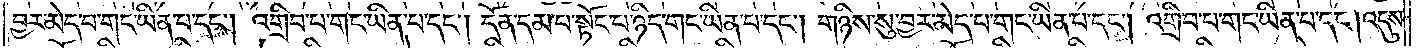བྱར་མེད་པ་གང་ཡིན་པ་དང༌། འགྲིབ་པ་གང་ཡིན་པ་དང༌། དོན་དམ་པ་སྟོང་པ་ཉིད་གང་ཡིན་པ་དང༌། གཉིས་སུ་བྱར་མེད་པ་གང་ཡིན་པ་དང༌། འགྲིབ་པ་གང་ཡིན་པ་དང༌། འདུས་
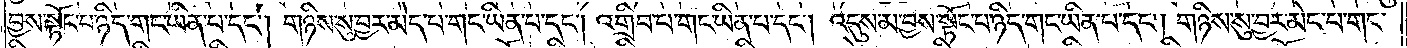བྱས་སྟོང་པ་ཉིད་གང་ཡིན་པ་དང༌། གཉིས་སུ་བྱར་མེད་པ་གང་ཡིན་པ་དང༌། འགྲིབ་པ་གང་ཡིན་པ་དང༌། འདུས་མ་བྱས་སྟོང་པ་ཉིད་གང་ཡིན་པ་དང༌། གཉིས་སུ་བྱར་མེད་པ་གང་
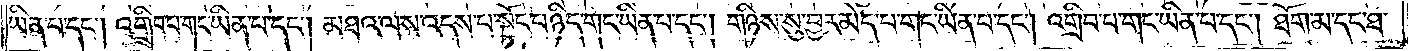ཡིན་པ་དང༌། འགྲིབ་པ་གང་ཡིན་པ་དང༌། མཐའ་ལས་འདས་པ་སྟོང་པ་ཉིད་གང་ཡིན་པ་དང༌། གཉིས་སུ་བྱར་མེད་པ་གང་ཡིན་པ་དང༌། འགྲིབ་པ་གང་ཡིན་པ་དང༌། ཐོག་མ་དང་ཐ་
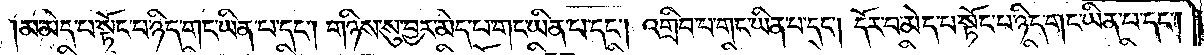མ་མེད་པ་སྟོང་པ་ཉིད་གང་ཡིན་པ་དང༌། གཉིས་སུ་བྱར་མེད་པ་གང་ཡིན་པ་དང༌། འགྲིབ་པ་གང་ཡིན་པ་དང༌། དོར་བ་མེད་པ་སྟོང་པ་ཉིད་གང་ཡིན་པ་དང༌།
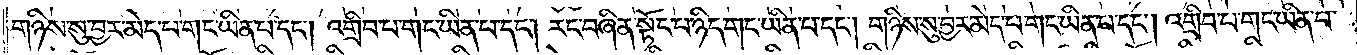གཉིས་སུ་བྱར་མེད་པ་གང་ཡིན་པ་དང༌། འགྲིབ་པ་གང་ཡིན་པ་དང༌། རང་བཞིན་སྟོང་པ་ཉིད་གང་ཡིན་པ་དང༌། གཉིས་སུ་བྱར་མེད་པ་གང་ཡིན་པ་དང༌། འགྲིབ་པ་གང་ཡིན་པ་
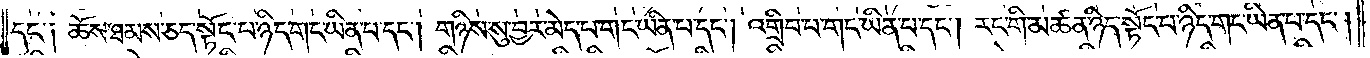དང༌༏ ཆོས་ཐམས་ཅད་སྟོང་པ་ཉིད་གང་ཡིན་པ་དང༌། གཉིས་སུ་བྱར་མེད་པ་གང་ཡིན་པ་དང༌། འགྲིབ་པ་གང་ཡིན་པ་དང༌། རང་གི་མཚན་ཉིད་སྟོང་པ་ཉིད་གང་ཡིན་པ་དང༌།
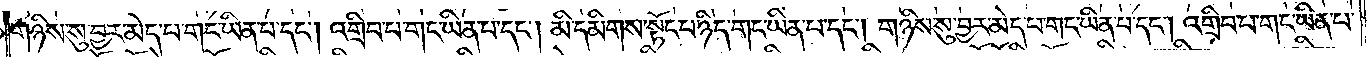གཉིས་སུ་བྱར་མེད་པ་གང་ཡིན་པ་དང༌། འགྲིབ་པ་གང་ཡིན་པ་དང༌། མི་དམིགས་པ་སྟོང་པ་ཉིད་གང་ཡིན་པ་དང༌། གཉིས་སུ་བྱར་མེད་པ་གང་ཡིན་པ་དང༌། འགྲིབ་པ་གང་ཡིན་པ་
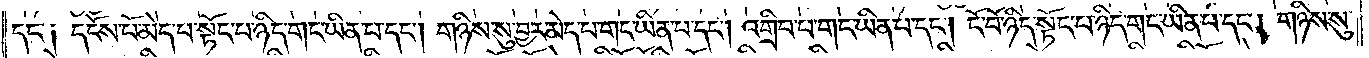དང༌༏ དངོས་པོ་མེད་པ་སྟོང་པ་ཉིད་གང་ཡིན་པ་དང༌། གཉིས་སུ་བྱར་མེད་པ་གང་ཡིན་པ་དང༌། འགྲིབ་པ་གང་ཡིན་པ་དང༌། ངོ་བོ་ཉིད་སྟོང་པ་ཉིད་གང་ཡིན་པ་དང༌། གཉིས་སུ་
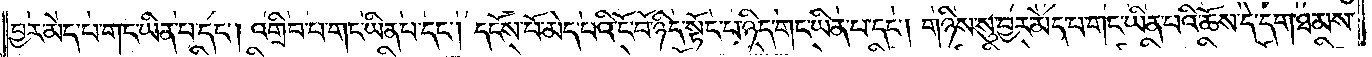བྱར་མེད་པ་གང་ཡིན་པ་དང༌། འགྲིབ་པ་གང་ཡིན་པ་དང༌། དངོས་པོ་མེད་པའི་ངོ་བོ་ཉིད་སྟོང་པ་ཉིད་གང་ཡིན་པ་དང༌། གཉིས་སུ་བྱར་མེད་པ་གང་ཡིན་པའི་ཆོས་དེ་དག་ཐམས་
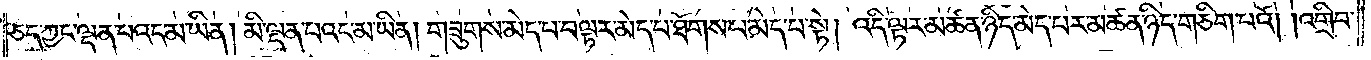ཅད་ཀྱང་ལྡན་པའང་མ་ཡིན། མི་ལྡན་པའང་མ་ཡིན། གཟུགས་མེད་པ་བལྟར་མེད་པ་ཐོགས་པ་མེད་པ་སྟེ། འདི་ལྟར་མཚན་ཉིད་མེད་པར་མཚན་ཉིད་གཅིག་པའོ། །འགྲིབ་
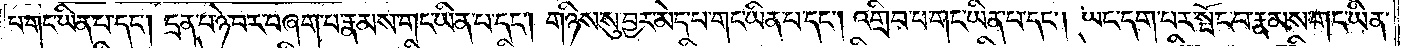པ་གང་ཡིན་པ་དང༌། དྲན་པ་ཉེ་བར་བཞག་པ་རྣམས་གང་ཡིན་པ་དང༌། གཉིས་སུ་བྱར་མེད་པ་གང་ཡིན་པ་དང༌། འགྲིབ་པ་གང་ཡིན་པ་དང༌། ཡང་དག་པར་སྤོང་བ་རྣམས་གང་ཡིན་
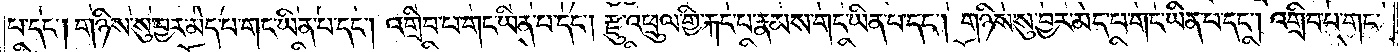པ་དང༌། གཉིས་སུ་བྱར་མེད་པ་གང་ཡིན་པ་དང༌། འགྲིབ་པ་གང་ཡིན་པ་དང༌། རྫུ་འཕྲུལ་གྱི་རྐང་པ་རྣམས་གང་ཡིན་པ་དང༌། གཉིས་སུ་བྱར་མེད་པ་གང་ཡིན་པ་དང༌། འགྲིབ་པ་གང་
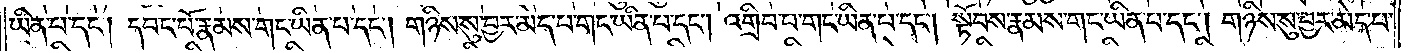ཡིན་པ་དང༌། དབང་པོ་རྣམས་གང་ཡིན་པ་དང༌། གཉིས་སུ་བྱར་མེད་པ་གང་ཡིན་པ་དང༌། འགྲིབ་པ་གང་ཡིན་པ་དང༌། སྟོབས་རྣམས་གང་ཡིན་པ་དང༌། གཉིས་སུ་བྱར་མེད་པ་
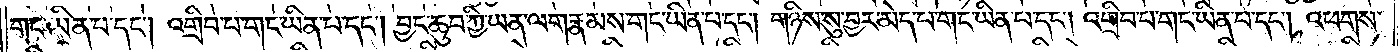གང་ཡིན་པ་དང༌། འགྲིབ་པ་གང་ཡིན་པ་དང༌། བྱང་ཆུབ་ཀྱི་ཡན་ལག་རྣམས་གང་ཡིན་པ་དང༌། གཉིས་སུ་བྱར་མེད་པ་གང་ཡིན་པ་དང༌། འགྲིབ་པ་གང་ཡིན་པ་དང༌། འཕགས་
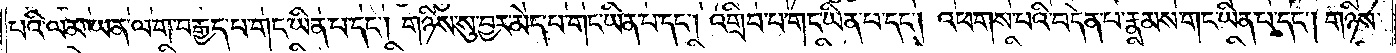པའི་ལམ་ཡན་ལག་བརྒྱད་པ་གང་ཡིན་པ་དང༌། གཉིས་སུ་བྱར་མེད་པ་གང་ཡིན་པ་དང༌། འགྲིབ་པ་གང་ཡིན་པ་དང༌། འཕགས་པའི་བདེན་པ་རྣམས་གང་ཡིན་པ་དང༌། གཉིས་
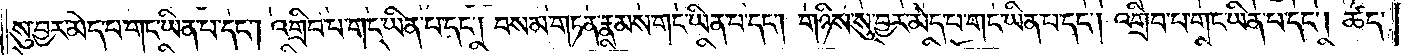སུ་བྱར་མེད་པ་གང་ཡིན་པ་དང༌། འགྲིབ་པ་གང་ཡིན་པ་དང༌། བསམ་གཏན་རྣམས་གང་ཡིན་པ་དང༌། གཉིས་སུ་བྱར་མེད་པ་གང་ཡིན་པ་དང༌། འགྲིབ་པ་གང་ཡིན་པ་དང༌། ཚད་
